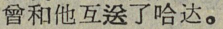會和他互送了哈达。
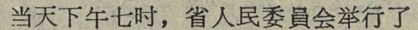当天下午七时，省人民委員会举行了
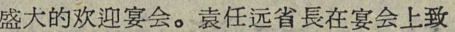盛大的欢迎宴会。袁任远省長在宴会上致
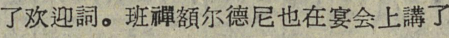了欢迎詞。班禪額尔德尼也在宴会上講了
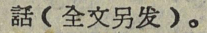話（全文另发）。
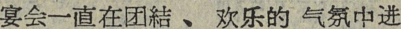宴会一直在团結、欢乐的气氛中进
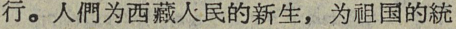行。人們为西藏人民的新生，为祖国的統
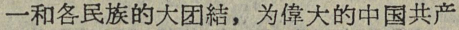一和各民族的大团結，为偉大的中国共产
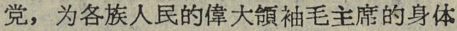党，为各族人民的偉大領袖毛主席的身体
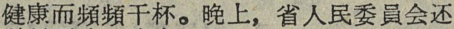健康而頻頻干杯。晚上，省人民委員会还
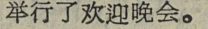举行了欢迎晚会。
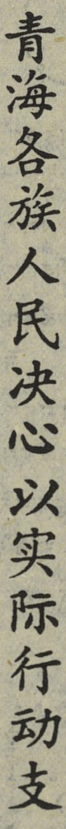青海各族人民决心以实际行动支
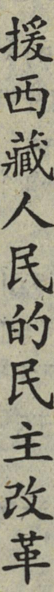援西藏人民的民主改革
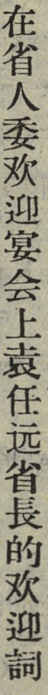在省人委欢迎宴会上袁任远省長的欢迎詞
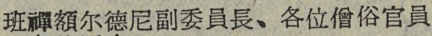班禪額尔德尼副委員長、各位僧俗官員
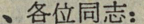、各位同志：
